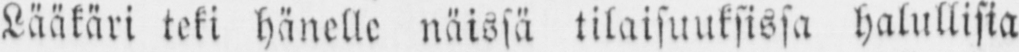Lääkäri teki hänelle näissä tilaisuuksissa halullisia
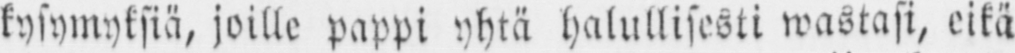kysymyksiä, joille pappi yhtä halullisesti wastasi, eikä
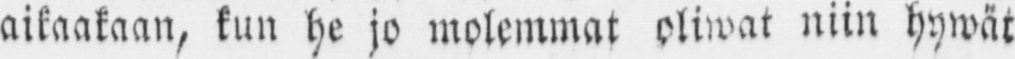aikaakaan, kun he jo molemmat oliwat niin hywät
